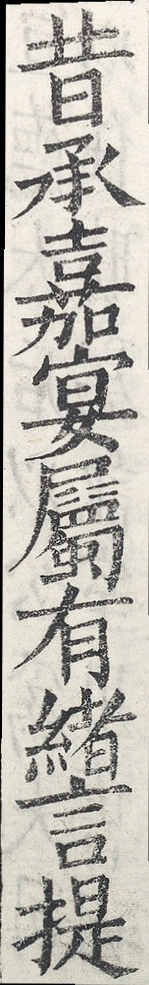昔承嘉宴屬有緒言提
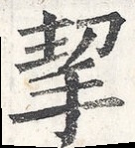挈
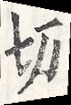切
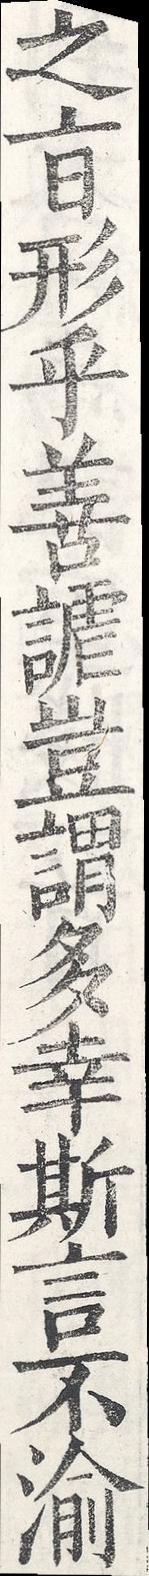之旨形乎善謔豈謂多幸斯言不渝
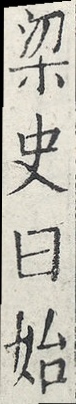梁史曰始
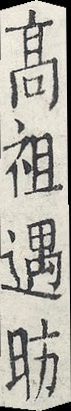高祖遇昉
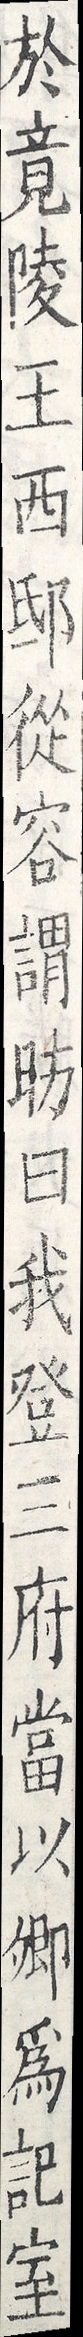於竟陵王西邸從容謂昉曰我登三府當以卿為記室
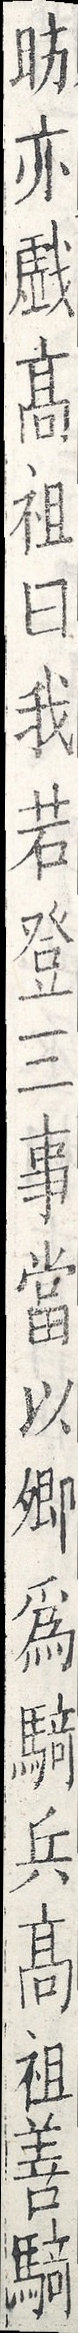昉亦戲高祖曰我若登三事當以卿為騎兵高祖善騎
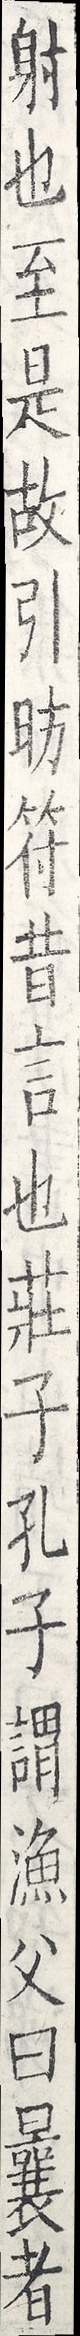射也至是故引昉符昔言也莊子孔子謂漁父曰曩者
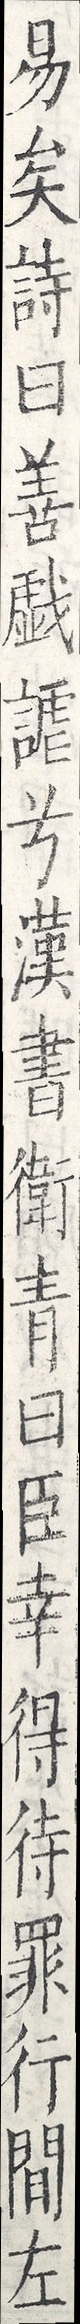易矣詩曰善戲謔兮漢書衛青曰臣幸得待罪行間左
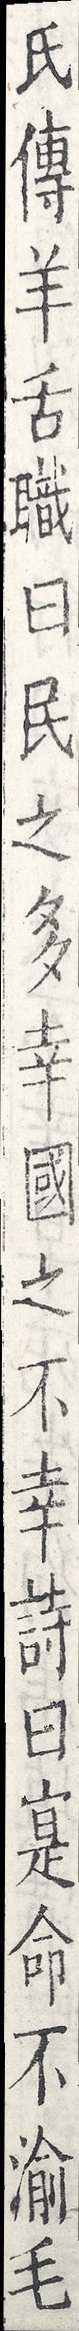氏傳羊舌職曰民之多幸國之不幸詩曰寔命不渝毛
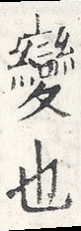變也
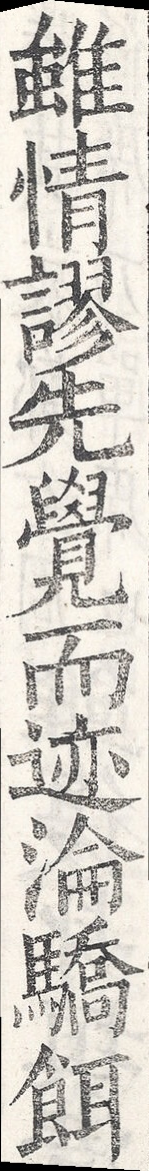雖情謬先覺而迹淪驕餌
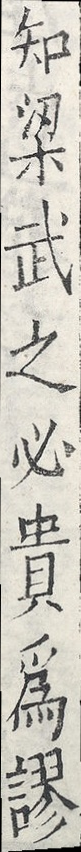知梁武之必貴為謬
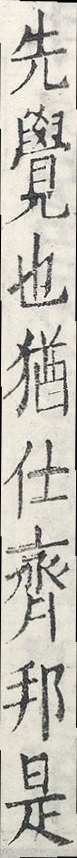先覺也猶仕齊邦是
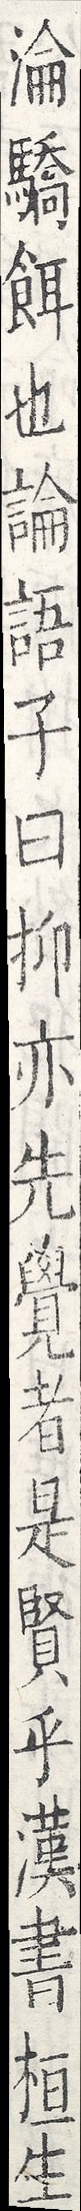淪驕餌也論語子曰抑亦先覺者是賢乎漢書桓生
